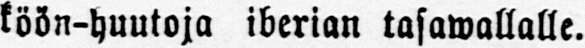köön-huutoja iberian tasawallalle.
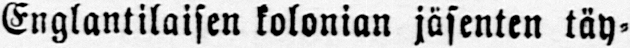Englantilaisen kolonian jäsenten täy-
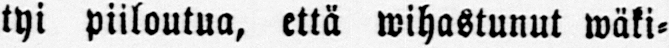tyi piiloutua, että wihastunut wäki-
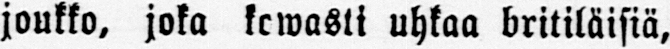joukko, joka kowasti uhkaa britiläisiä,
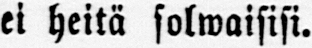ei heitä solwaisisi.
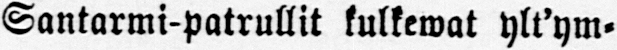Santarmi-patrullit kulkewat ylt'ym-
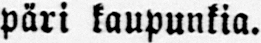päri kaupunkia.
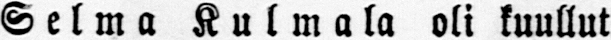Selma Kulmala oli kuullut
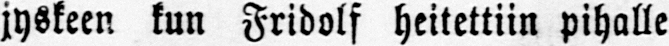jyskeen kun Fridolf heitettiin pihalle
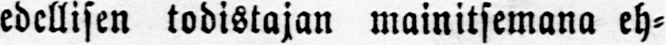edellisen todistajan mainitsemana eh-
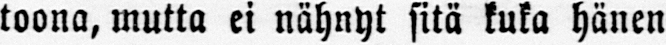toona, mutta ei nähnyt sitä kuka hänen
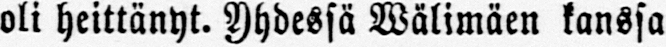oli heittänyt. Yhdessä Wälimäen kanssa
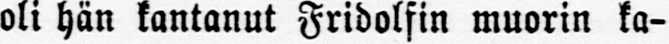oli hän kantanut Fridolfin muorin ka-
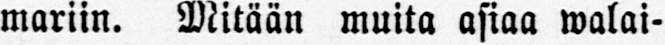mariin. Mitään muita asiaa walai-
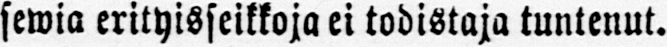sewia erityisseikkoja ei todistaja tuntenut.
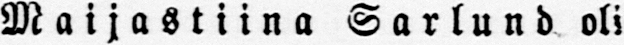Maijastiina Sarlund oli
